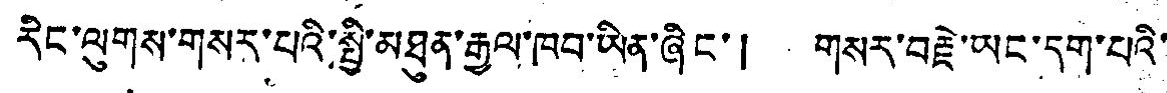རིང་ལུགས་གསར་པའི་སྤྱི་མཐུན་རྒྱལ་ཁབ་ཡིན་ཞིང་། གསར་བརྗེ་ཡང་དག་པའི་
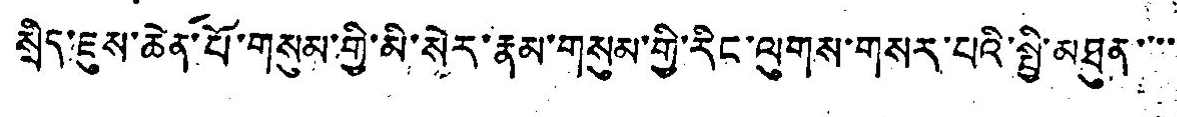སྲིད་ཇུས་ཆེན་པོ་གསུམ་གྱི་མི་སེར་རྣམ་གསུམ་གྱི་རིང་ལུགས་གསར་པའི་སྤྱི་མཐུན་་་་
